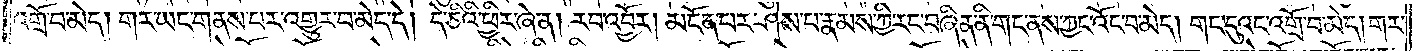འགྲོ་བ་མེད། གར་ཡང་གནས་པར་འགྱུར་བ་མེད་དེ། དེ་ཅིའི་ཕྱིར་ཞེ་ན། རབ་འབྱོར། མངོན་པར་ཤེས་པ་རྣམས་ཀྱི་རང་བཞིན་ནི་གང་ནས་ཀྱང་འོང་བ་མེད། གང་དུའང་འགྲོ་བ་མེད། གར་
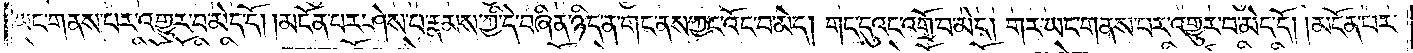ཡང་གནས་པར་འགྱུར་བ་མེད་དོ། །མངོན་པར་ཤེས་པ་རྣམས་ཀྱི་དེ་བཞིན་ཉིད་ནི་གང་ནས་ཀྱང་འོང་བ་མེད། གང་དུའང་འགྲོ་བ་མེད། གར་ཡང་གནས་པར་འགྱུར་བ་མེད་དོ། །མངོན་པར་
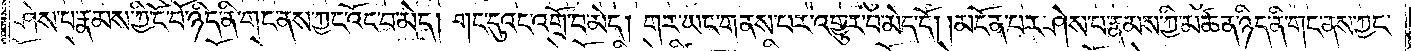ཤེས་པ་རྣམས་ཀྱི་ངོ་བོ་ཉིད་ནི་གང་ནས་ཀྱང་འོང་བ་མེད། གང་དུའང་འགྲོ་བ་མེད། གར་ཡང་གནས་པར་འགྱུར་བ་མེད་དོ། །མངོན་པར་ཤེས་པ་རྣམས་ཀྱི་མཚན་ཉིད་ནི་གང་ནས་ཀྱང་
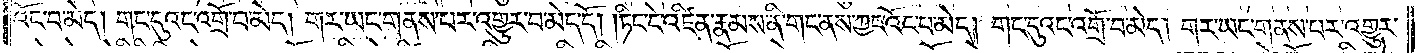འོང་བ་མེད། གང་དུའང་འགྲོ་བ་མེད། གར་ཡང་གནས་པར་འགྱུར་བ་མེད་དོ། །ཏིང་ངེ་འཛིན་རྣམས་ནི་གང་ནས་ཀྱང་འོང་བ་མེད། གང་དུའང་འགྲོ་བ་མེད། གར་ཡང་གནས་པར་འགྱུར་
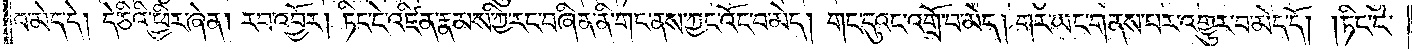བ་མེད་དེ། དེ་ཅིའི་ཕྱིར་ཞེ་ན། རབ་འབྱོར། ཏིང་ངེ་འཛིན་རྣམས་ཀྱི་རང་བཞིན་ནི་གང་ནས་ཀྱང་འོང་བ་མེད། གང་དུའང་འགྲོ་བ་མེད། གར་ཡང་གནས་པར་འགྱུར་བ་མེད་དོ། །ཏིང་ངེ་
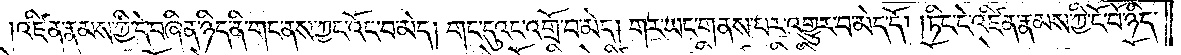འཛིན་རྣམས་ཀྱི་དེ་བཞིན་ཉིད་ནི་གང་ནས་ཀྱང་འོང་བ་མེད། གང་དུའང་འགྲོ་བ་མེད། གར་ཡང་གནས་པར་འགྱུར་བ་མེད་དོ། །ཏིང་ངེ་འཛིན་རྣམས་ཀྱི་ངོ་བོ་ཉིད་
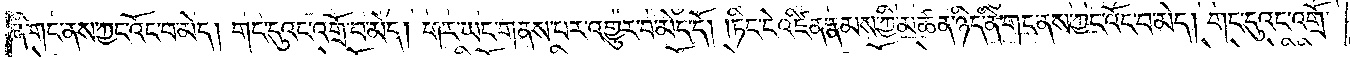ནི་གང་ནས་ཀྱང་འོང་བ་མེད། གང་དུའང་འགྲོ་བ་མེད། གང་ཡང་གནས་པར་འགྱུར་བ་མེད་དོ། །ཏིང་ངེ་འཛིན་རྣམས་ཀྱི་མཚན་ཉིད་ནི་གང་ནས་ཀྱང་འོང་བ་མེད། གང་དུའང་འགྲོ་
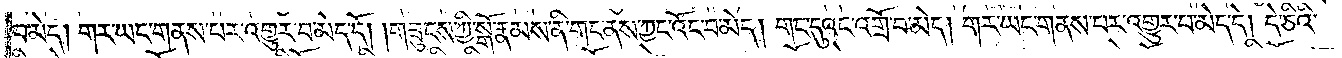བ་མེད། གར་ཡང་གནས་པར་འགྱུར་བ་མེད་དོ། །གཟུངས་ཀྱི་སྒོ་རྣམས་ནི་གང་ནས་ཀྱང་འོང་བ་མེད། གང་དུའང་འགྲོ་བ་མེད། གར་ཡང་གནས་པར་འགྱུར་བ་མེད་དོ། དེ་ཅིའི་
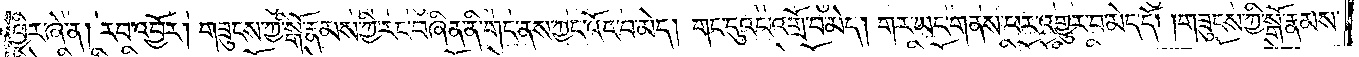ཕྱིར་ཞེ་ན། རབ་འབྱོར། གཟུངས་ཀྱི་སྒོ་རྣམས་ཀྱི་རང་བཞིན་ནི་གང་ནས་ཀྱང་འོང་བ་མེད། གང་དུའང་འགྲོ་བ་མེད། གར་ཡང་གནས་པར་འགྱུར་བ་མེད་དོ། །གཟུངས་ཀྱི་སྒོ་རྣམས་
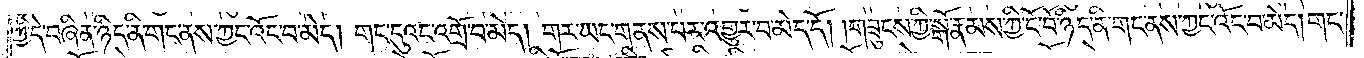ཀྱི་དེ་བཞིན་ཉིད་ནི་གང་ནས་ཀྱང་འོང་བ་མེད། གང་དུའང་འགྲོ་བ་མེད། གར་ཡང་གནས་པར་འགྱུར་བ་མེད་དེ། །གཟུངས་ཀྱི་སྒོ་རྣམས་ཀྱི་ངོ་བོ་ཉིད་ནི་གང་ནས་ཀྱང་འོང་བ་མེད། གང་
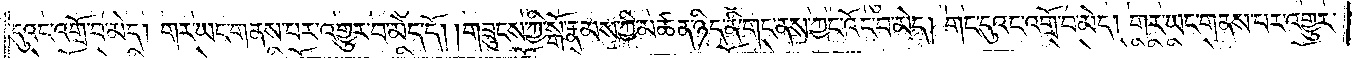དུའང་འགྲོ་བ་མེད། གར་ཡང་གནས་པར་འགྱུར་བ་མེད་དོ། །གཟུངས་ཀྱི་སྒོ་རྣམས་ཀྱི་མཚན་ཉིད་ནི་གང་ནས་ཀྱང་འོང་བ་མེད། གང་དུའང་འགྲོ་བ་མེད། གར་ཡང་གནས་པར་འགྱུར་
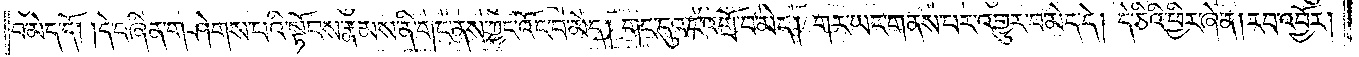བ་མེད་དོ། །དེ་བཞིན་གཤེགས་པའི་སྟོབས་རྣམས་ནི་གང་ནས་ཀྱང་འོང་བ་མེད། གང་དུའང་འགྲོ་བ་མེད། གར་ཡང་གནས་པར་འགྱུར་བ་མེད་དོ། དེ་ཅིའི་ཕྱིར་ཞེ་ན། རབ་འབྱོར།
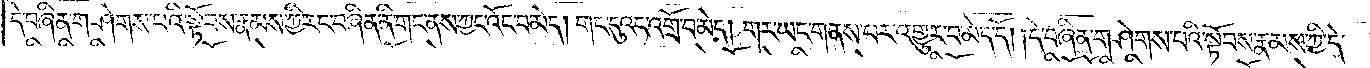དེ་བཞིན་གཤེགས་པའི་སྟོབས་རྣམས་ཀྱི་རང་བཞིན་ནི་གང་ནས་ཀྱང་འོང་བ་མེད། གང་དུའང་འགྲོ་བ་མེད། གར་ཡང་གནས་པར་འགྱུར་བ་མེད་དོ། །དེ་བཞིན་གཤེགས་པའི་སྟོབས་རྣམས་ཀྱི་དེ་
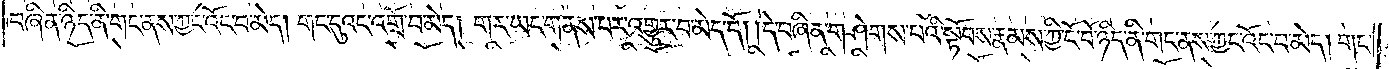བཞིན་ཉིད་ནི་གང་ནས་ཀྱང་འོང་བ་མེད། གང་དུའང་འགྲོ་བ་མེད། གར་ཡང་གནས་པར་འགྱུར་བ་མེད་དོ། །དེ་བཞིན་གཤེགས་པའི་སྟོབས་རྣམས་ཀྱི་ངོ་བོ་ཉིད་ནི་གང་ནས་ཀྱང་འོང་བ་མེད། གང་
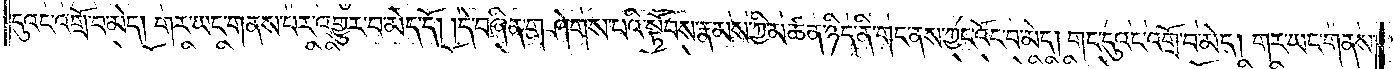དུ་འང་འགྲོ་བ་མེད། གར་ཡང་གནས་པར་འགྱུར་བ་མེད་དོ། །དེ་བཞིན་གཤེགས་པའི་སྟོབས་རྣམས་ཀྱི་མཚན་ཉིད་ནི་གང་ནས་ཀྱང་འོང་བ་མེད། གང་དུའང་འགྲོ་བ་མེད། གར་ཡང་གནས་
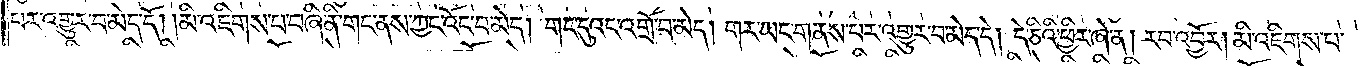པར་འགྱུར་བ་མེད་དོ། །མི་འཇིགས་པ་བཞི་ནི་གང་ནས་ཀྱང་འོང་བ་མེད། གང་དུའང་འགྲོ་བ་མེད། གར་ཡང་གནས་པར་འགྱུར་བ་མེད་དེ། དེ་ཅིའི་ཕྱིར་ཞེ་ན། རབ་འབྱོར། མི་འཇིགས་པ་
